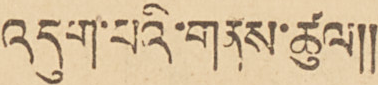འདུག་པའི་གནས་ཚུལ།།
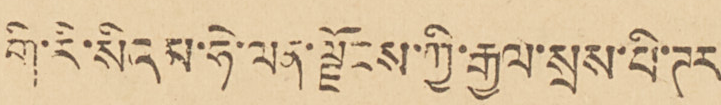གི་རི་སིའམ་ཧེ་ལན་སྗོངས་ཀྱི་རྒྱལ་སྲས་པི་ཊར་
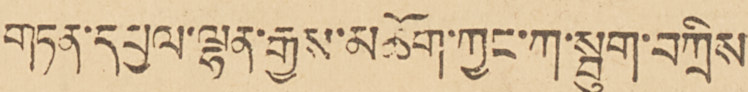གཏན་དཔྱད་ལྷན་རྒྱས་མཆོག་ཀྱང་ཀ་སྦུག་བཀྲིས་
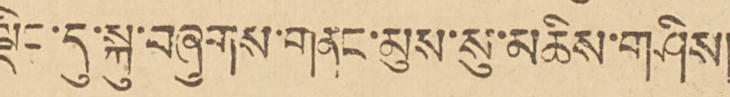ལྡིང་དུ་སྐུ་བཞུགས་གནང་མུས་སུ་མཆིས་གཤིས།
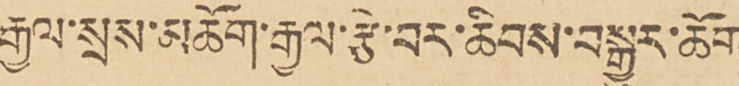རྒྱལ་སྲས་མཆོག་རྒྱལ་རྩེ་བར་ཆིབས་བསྒྱུར་ཆོག་
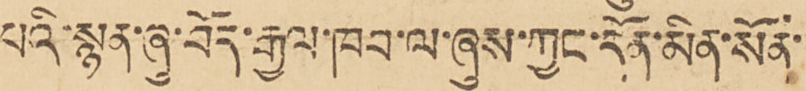པའི་སྙམ་ཞུ་བོད་རྒྱལ་ཁབ་ལ་ཞུས་ཀྱང་དོན་མིན་སོན་
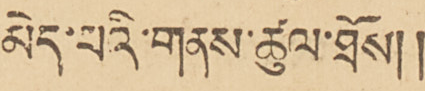མེད་པའི་གནས་ཚུལ་ཐོས།།
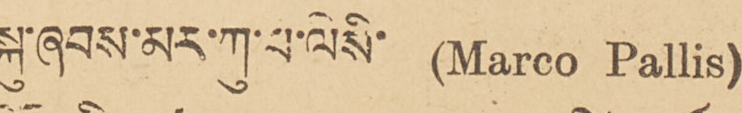སྐུ་ཞབས་མར་ཀུ་པ་ལིསི་ (Marco Pallis)
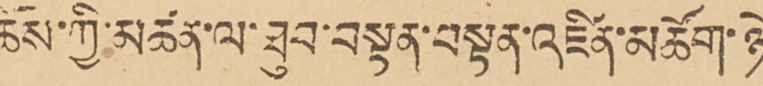ཆོས་ཀྱི་མཚན་ལ་ཐུབ་བསྟན་བསྟན་འཛིན་མཆོག་ཉེ་
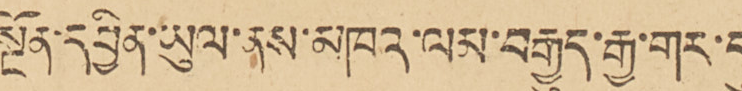སྔོན་དབྱིན་ཡུལ་ནས་མཁའ་ལམ་བརྒྱུད་རྒྱ་གར་དུ་
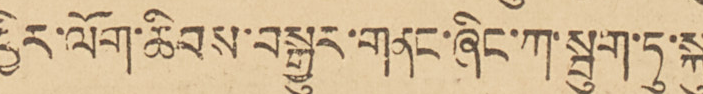ཕྱིར་ལོག་ཆིབས་བསྒྱུར་གནང་ཞིང་ཀ་སྤུག་ཏུ་སྐུ་
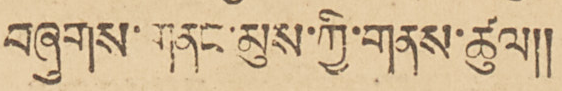བཞུགས་གནང་མུས་ཀྱི་གནས་ཚུལ།།
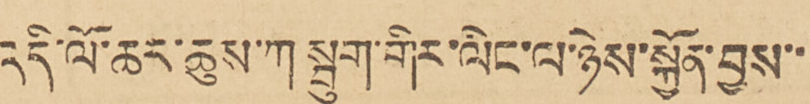འདི་ལོ་ཆར་ཆུས་ཀ སྦུག་གིར་ལིང་ལ་ཉེས་སྐྱོན་བྱས་་
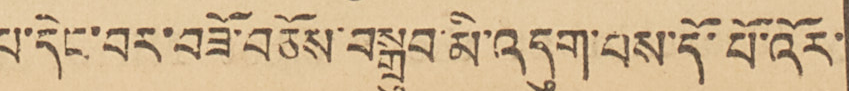པ་དེང་བར་བཟོ་བཅོས་བསྒྲུབ་མི་འདུག་པས་དོ་པོ་འོར་
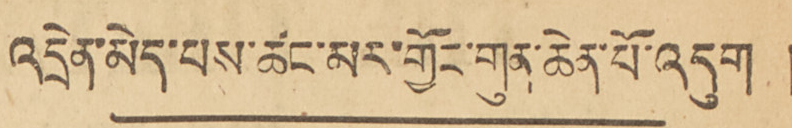འདྲེན་མེད་པས་ཚང་མར་གྱོང་གུན་ཆེན་པོ་འདུག །
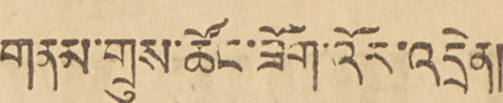གནམ་གྲུས་ཚོང་ཟོག་འོར་འདྲེན།
